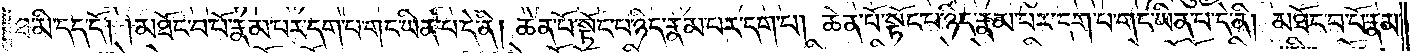ཐ་མི་དད་དོ། །མཐོང་བ་པོ་རྣམ་པར་དག་པ་གང་ཡིན་པ་དེ་ནི། ཆེན་པོ་སྟོང་པ་ཉིད་རྣམ་པར་དག་པ། ཆེན་པོ་སྟོང་པ་ཉིད་རྣམ་པར་དག་པ་གང་ཡིན་པ་དེ་ནི། མཐོང་བ་པོ་རྣམ་
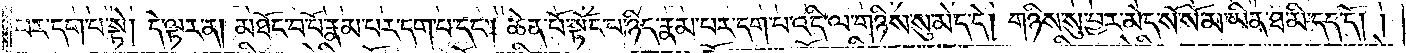པར་དག་པ་སྟེ། དེ་ལྟར་ན། མཐོང་བ་པོ་རྣམ་པར་དག་པ་དང༌། ཆེན་པོ་སྟོང་པ་ཉིད་རྣམ་པར་དག་པ་འདི་ལ་གཉིས་སུ་མེད་དེ། གཉིས་སུ་བྱར་མེད་སོ་སོ་མ་ཡིན་ཐ་མི་དད་དོ། །
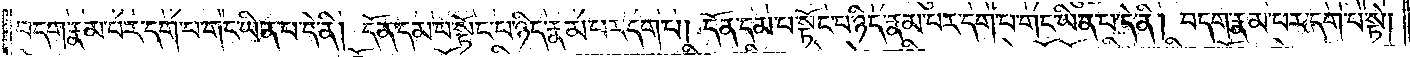བདག་རྣམ་པར་དག་པ་གང་ཡིན་པ་དེ་ནི། དོན་དམ་པ་སྟོང་པ་ཉིད་རྣམ་པར་དག་པ། དོན་དམ་པ་སྟོང་པ་ཉིད་རྣམ་པར་དག་པ་གང་ཡིན་པ་དེ་ནི། བདག་རྣམ་པར་དག་པ་སྟེ།
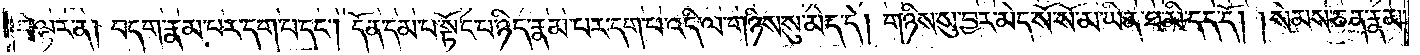དེ་ལྟར་ན། བདག་རྣམ་པར་དག་པ་དང༌། དོན་དམ་པ་སྟོང་པ་ཉིད་རྣམ་པར་དག་པ་འདི་ལ་གཉིས་སུ་མེད་དེ། གཉིས་སུ་བྱར་མེད་སོ་སོ་མ་ཡིན་ཐ་མི་དད་དོ། །སེམས་ཅན་རྣམ་
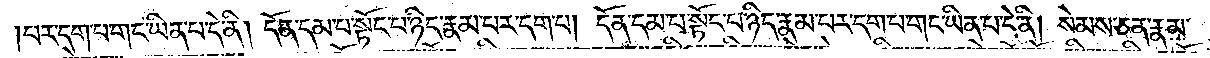པར་དག་པ་གང་ཡིན་པ་དེ་ནི། དོན་དམ་པ་སྟོང་པ་ཉིད་རྣམ་པར་དག་པ། དོན་དམ་པ་སྟོང་པ་ཉིད་རྣམ་པར་དག་པ་གང་ཡིན་པ་དེ་ནི། སེམས་ཅན་རྣམ་
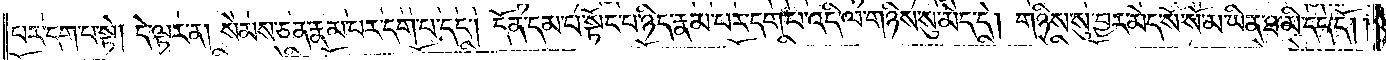པར་དག་པ་སྟེ། དེ་ལྟར་ན། སེམས་ཅན་རྣམ་པར་དག་པ་དང༌། དོན་དམ་པ་སྟོང་པ་ཉིད་རྣམ་པར་དག་པ་འདི་ལ་གཉིས་སུ་མེད་དེ། གཉིས་སུ་བྱར་མེད་སོ་སོ་མ་ཡིན་ཐ་མི་དད་དོ། །
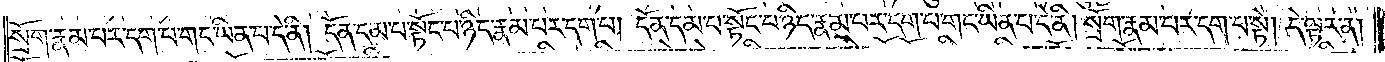སྲོག་རྣམ་པར་དག་པ་གང་ཡིན་པ་དེ་ནི། དོན་དམ་པ་སྟོང་པ་ཉིད་རྣམ་པར་དག་པ། དོན་དམ་པ་སྟོང་པ་ཉིད་རྣམ་པར་དག་པ་གང་ཡིན་པ་དེ་ནི། སྲོག་རྣམ་པར་དག་པ་སྟེ། དེ་ལྟར་ན།
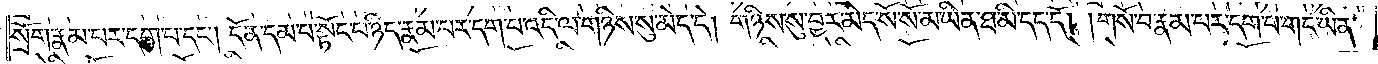སྲོག་རྣམ་པར་དག་པ་དང༌། དོན་དམ་པ་སྟོང་པ་ཉིད་རྣམ་པར་དག་པ་འདི་ལ་གཉིས་སུ་མེད་དེ། གཉིས་སུ་བྱར་མེད་སོ་སོ་མ་ཡིན་ཐ་མི་དད་དོ། །གསོ་བ་རྣམ་པར་དག་པ་གང་ཡིན་
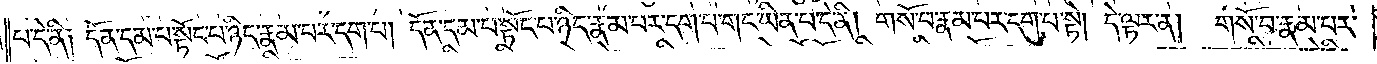པ་དེ་ནི། དོན་དམ་པ་སྟོང་པ་ཉིད་རྣམ་པར་དག་པ། དོན་དམ་པ་སྟོང་པ་ཉིད་རྣམ་པར་དག་པ་གང་ཡིན་པ་དེ་ནི། གསོ་བ་རྣམ་པར་དག་པ་སྟེ། དེ་ལྟར་ན། གསོ་བ་རྣམ་པར་
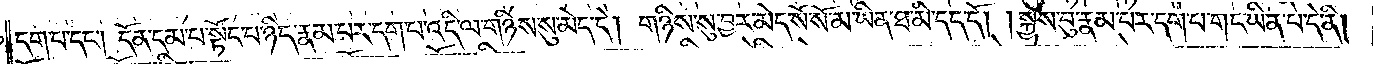དག་པ་དང༌། དོན་དམ་པ་སྟོང་པ་ཉིད་རྣམ་པར་དག་པ་འདི་ལ་གཉིས་སུ་མེད་དེ། གཉིས་སུ་བྱར་མེད་སོ་སོ་མ་ཡིན་ཐ་མི་དད་དོ། །སྐྱེས་བུ་རྣམ་པར་དག་པ་གང་ཡིན་པ་དེ་ནི།
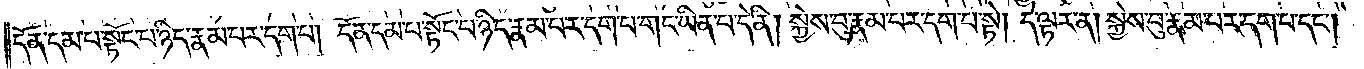དོན་དམ་པ་སྟོང་པ་ཉིད་རྣམ་པར་དག་པ། དོན་དམ་པ་སྟོང་པ་ཉིད་རྣམ་པར་དག་པ་གང་ཡིན་པ་དེ་ནི། སྐྱེས་བུ་རྣམ་པར་དག་པ་སྟེ། དེ་ལྟར་ན། སྐྱེས་བུ་རྣམ་པར་དག་པ་དང༌།
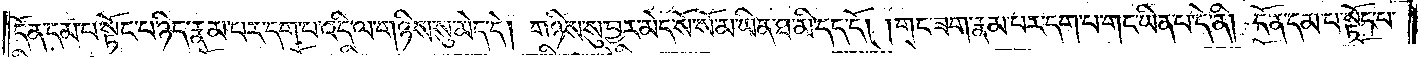དོན་དམ་པ་སྟོང་པ་ཉིད་རྣམ་པར་དག་པ་འདི་ལ་གཉིས་སུ་མེད་དེ། གཉིས་སུ་བྱར་མེད་སོ་སོ་མ་ཡིན་ཐ་མི་དད་དོ། །གང་ཟག་རྣམ་པར་དག་པ་གང་ཡིན་པ་དེ་ནི། དོན་དམ་པ་སྟོང་པ་
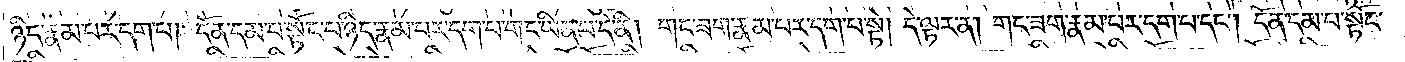ཉིད་རྣམ་པར་དག་པ། དོན་དམ་པ་སྟོང་པ་ཉིད་རྣམ་པར་དག་པ་གང་ཡིན་པ་དེ་ནི། གང་ཟག་རྣམ་པར་དག་པ་སྟེ། དེ་ལྟར་ན། གང་ཟག་རྣམ་པར་དག་པ་དང༌། དོན་དམ་པ་སྟོང་
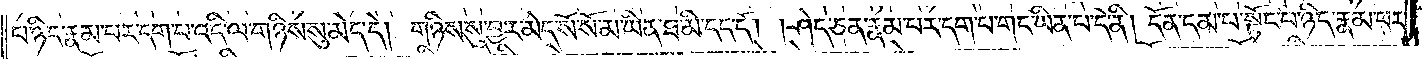པ་ཉིད་རྣམ་པར་དག་པ་འདི་ལ་གཉིས་སུ་མེད་དེ། གཉིས་སུ་བྱར་མེད་སོ་སོ་མ་ཡིན་ཐ་མི་དད་དོ། །ཤེད་ཅན་རྣམ་པར་དག་པ་གང་ཡིན་པ་དེ་ནི། དོན་དམ་པ་སྟོང་པ་ཉིད་རྣམ་པར་
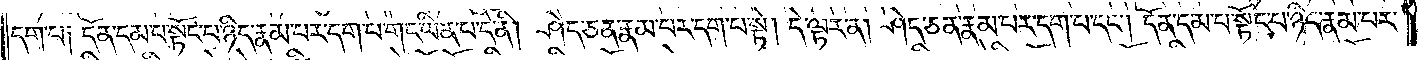དག་པ། དོན་དམ་པ་སྟོང་པ་ཉིད་རྣམ་པར་དག་པ་གང་ཡིན་པ་དེ་ནི། ཤེད་ཅན་རྣམ་པར་དག་པ་སྟེ། དེ་ལྟར་ན། ཤེད་ཅན་རྣམ་པར་དག་པ་དང༌། དོན་དམ་པ་སྟོང་པ་ཉིད་རྣམ་པར་
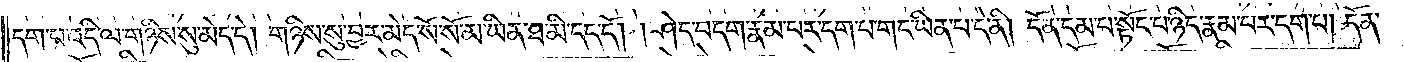དག་པ་འདི་ལ་གཉིས་སུ་མེད་དེ། གཉིས་སུ་བྱར་མེད་སོ་སོ་མ་ཡིན་པའི་ཐ་མི་དད་དོ། །ཤེད་བདག་རྣམ་པར་དག་པ་གང་ཡིན་པ་དེ་ནི། དོན་དམ་པ་སྟོང་པ་ཉིད་རྣམ་པར་དག་པ། དོན་
